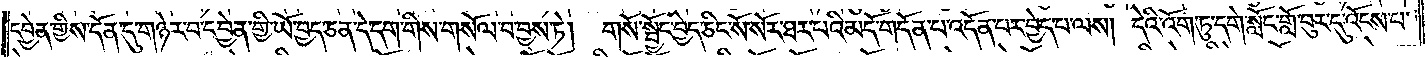དབྱེན་གྱིས་དོན་དུ་གཉེར་བ་དབྱེན་གྱི་ཡོ་བྱད་ཅན་དེ་དག་གིས་གསོལ་བ་བྱས་ཏེ། གསོ་སྦྱོང་བྱེད་ཅིང་སོ་སོར་ཐར་པའི་མདོ་གདོན་པ་འདོན་པར་བྱེད་པ་ལས། དེའི་འོག་ཏུ་དགེ་སློང་གློ་བུར་དུ་འོངས་པ་
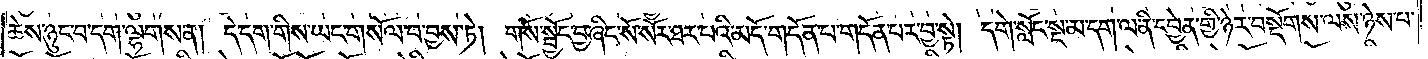ཆེས་ཉུང་བ་དག་ལྷགས་ན། དེ་དག་གིས་ཡང་གསོལ་བ་བྱས་ཏེ། གསོ་སྦྱོང་བྱ་ཞིང་སོ་སོར་ཐར་པའི་མདོ་གདོན་པ་གདོན་པར་བྱ་སྟེ། དགེ་སློང་སྔ་མ་དག་ལ་ནི་དབྱེན་གྱི་ཉེར་བསྡོགས་ལས་ཉེས་པ་
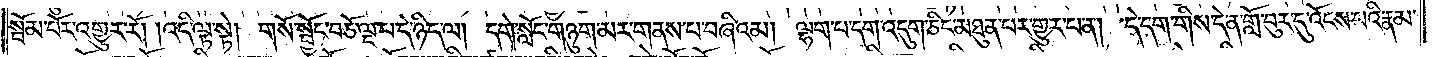སྦོམ་པོར་འགྱུར་རོ། །འདི་ལྟ་སྟེ། གསོ་སྦྱོང་བཅོ་ལྔ་པ་དེ་ཉིད་ལ། དགེ་སློང་གཉུག་མར་གནས་པ་བཞིའམ། ལྷག་པ་དག་འདུག་ཅིང་མཐུན་པར་གྱུར་པ་ན། དེ་དག་གིས་དེ་ན་གློ་བུར་དུ་འོངས་པའི་རྣམ་
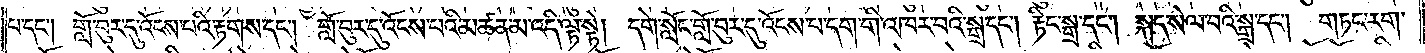པ་དང༌། གློ་བུར་དུ་འོངས་པའི་རྟགས་དང༌། གློ་བུར་དུ་འོངས་པའི་མཚན་མ་འདི་ལྟ་སྟེ། དགེ་སློང་གློ་བུར་དུ་འོངས་པ་དག་གི་འཁར་བའི་སྒྲ་དང༌། རྟིང་སྒྲ་དང༌། སྐད་སེལ་བའི་སྒྲ་དང༌། གཏང་རག་
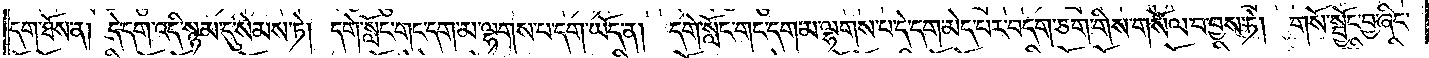དག་ཐོས་ན། དེ་དག་འདི་སྙམ་དུ་སེམས་ཏེ། དགེ་སློང་གང་དག་མ་ལྷགས་པ་དག་ཡོད་ན། དགེ་སློང་གང་དག་མ་ལྷགས་པ་དེ་དག་མེད་པར་བདག་ཅག་གིས་གསོལ་བ་བྱས་ཏེ། གསོ་སྦྱོང་བྱ་ཞིང་
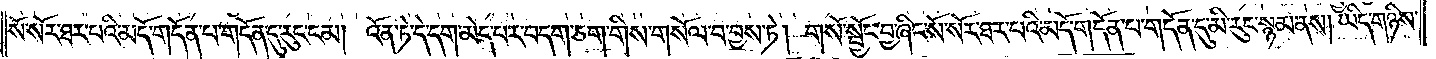སོ་སོར་ཐར་པའི་མདོ་གདོན་པ་གདོན་དུ་རུང་ངམ། འོན་ཏེ་དེ་དག་མེད་པར་བདག་ཅག་གིས་གསོལ་བ་བྱས་ཏེ། གསོ་སྦྱོང་བྱ་ཞིང་སོ་སོར་ཐར་པའི་མདོ་གདོན་པ་གདོན་དུ་མི་རུང་སྙམ་ནས། ཡིད་གཉིས་
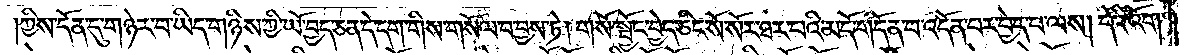ཀྱིས་དོན་དུ་གཉེར་བ་ཡིད་གཉིས་ཀྱི་ཡོ་བྱད་ཅན་དེ་དག་གིས་གསོལ་བ་བྱས་ཏེ། གསོ་སྦྱོང་བྱེད་ཅིང་སོ་སོར་ཐར་པའི་མདོ་གདོན་པ་འདོན་པར་བྱེད་པ་ལས། དེའི་འོག་
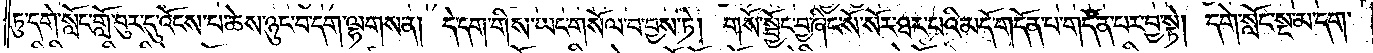ཏུ་དགེ་སློང་གློ་བུར་དུ་འོངས་པ་ཆེས་ཉུང་བ་དག་ལྷགས་ན། དེ་དག་གིས་ཡང་གསོལ་བ་བྱས་ཏེ། གསོ་སྦྱོང་བྱ་ཞིང་སོ་སོར་ཐར་པའི་མདོ་གདོན་པ་གདོན་པར་བྱ་སྟེ། དགེ་སློང་སྔ་མ་དག་
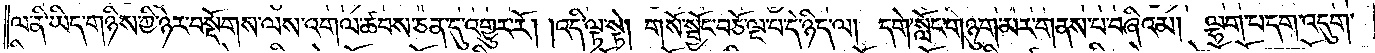ལ་ནི་ཡིད་གཉིས་ཀྱི་ཉེར་བསྡོགས་ལས་འགལ་ཚབས་ཅན་དུ་འགྱུར་རོ། །འདི་ལྟ་སྟེ། གསོ་སྦྱོང་བཅོ་ལྔ་པ་དེ་ཉིད་ལ། དགེ་སློང་གཉུག་མར་གནས་པ་བཞིའམ། ལྷག་པ་དག་འདུག་
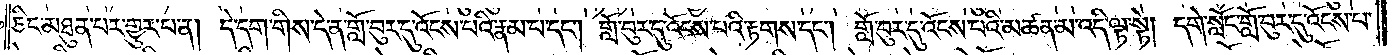ཅིང་མཐུན་པར་གྱུར་པ་ན། དེ་དག་གིས་དེ་ན་གློ་བུར་དུ་འོངས་པའི་རྣམ་པ་དང༌། གློ་བུར་དུ་འོངས་པའི་རྟགས་དང༌། གློ་བུར་དུ་འོངས་པའི་མཚན་མ་འདི་ལྟ་སྟེ། དགེ་སློང་གློ་བུར་དུ་འོངས་པ་
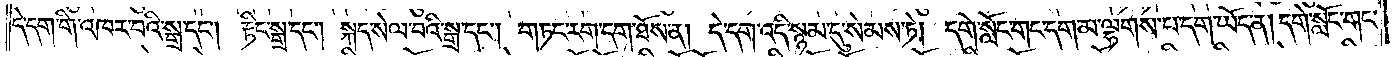དེ་དག་གི་འཁར་བའི་སྒྲ་དང༌། རྟིང་སྒྲ་དང༌། སྐད་སེལ་བའི་སྒྲ་དང༌། གཏང་རག་དག་ཐོས་ན། དེ་དག་འདི་སྙམ་དུ་སེམས་ཏེ། དགེ་སློང་གང་དག་མ་ལྷགས་པ་དག་ཡོད་ན། དགེ་སློང་གང་
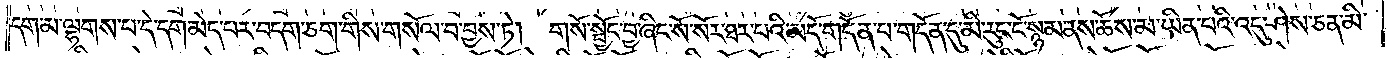དག་མ་ལྷགས་པ་དེ་དག་མེད་པར་བདག་ཅག་གིས་གསོལ་བ་བྱས་ཏེ། གསོ་སྦྱོང་བྱ་ཞིང་སོ་སོར་ཐར་པའི་མདོ་གདོན་པ་གདོན་དུ་མི་རུང་ངོ་སྙམ་ནས་ཆོས་མ་ཡིན་པའི་འདུ་ཤེས་ཅན་མི་
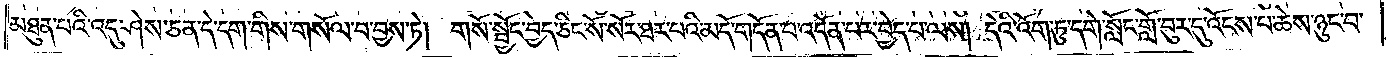མཐུན་པའི་འདུ་ཤེས་ཅན་དེ་དག་གིས་གསོལ་བ་བྱས་ཏེ། གསོ་སྦྱོང་བྱེད་ཅིང་སོ་སོར་ཐར་པའི་མདོ་གདོན་པ་འདོན་པར་བྱེད་པ་ལས། དེའི་འོག་ཏུ་དགེ་སློང་གློ་བུར་དུ་འོངས་པ་ཆེས་ཉུང་བ་
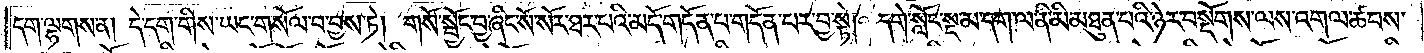དག་ལྷགས་ན། དེ་དག་གིས་ཡང་གསོལ་བ་བྱས་ཏེ། གསོ་སྦྱོང་བྱ་ཞིང་སོ་སོར་ཐར་པའི་མདོ་གདོན་པ་གདོན་པར་བྱ་སྟེ། དགེ་སློང་སྔ་མ་དག་ལ་ནི་མི་མཐུན་པའི་ཉེར་བསྡོགས་ལས་འགལ་ཚབས་
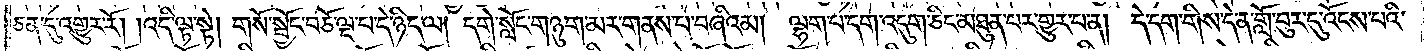ཅན་དུ་འགྱུར་རོ། །འདི་ལྟ་སྟེ། གསོ་སྦྱོང་བཅོ་ལྔ་པ་དེ་ཉིད་ལ། དགེ་སློང་གཉུག་མར་གནས་པ་བཞིའམ། ལྷག་པ་དག་འདུག་ཅིང་མཐུན་པར་གྱུར་པ་ན། དེ་དག་གིས་དེ་ན་གློ་བུར་དུ་འོངས་པའི་
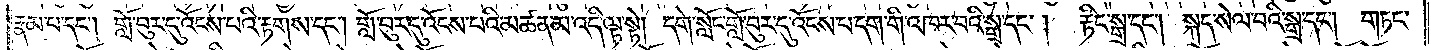རྣམ་པ་དང༌། གློ་བུར་དུ་འོངས་པའི་རྟགས་དང༌། གློ་བུར་དུ་འོངས་པའི་མཚན་མ་འདི་ལྟ་སྟེ། དགེ་སློང་གློ་བུར་དུ་འོངས་པ་དག་གི་འཁར་བའི་སྒྲ་དང༌། རྟིང་སྒྲ་དང༌། སྐད་སེལ་བའི་སྒྲ་དང༌། གཏང་
